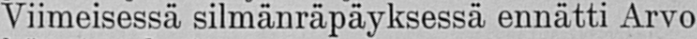Viimeisessä silmänräpäyksessä ennätti Arvo
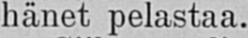hänet pelastaa.
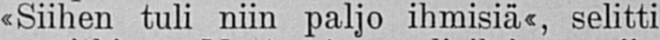«Siihen tuli niin paljo ihmisiä«, selitti
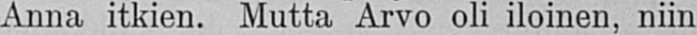Anna itkien. Mutta Arvo oli iloinen, niin
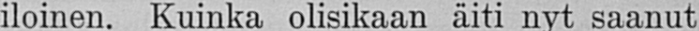iloinen. Kuinka olisikaan äiti saanut
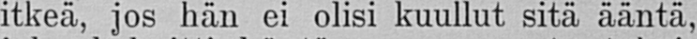itkeä, jos hän ei olisi kuullut sitä ääntä,
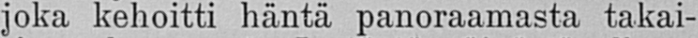joka kehoitti häntä panoraamasta takai-
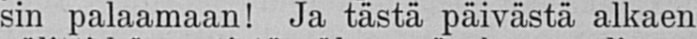sin palaamaan! Ja tästä päivästä alkaen
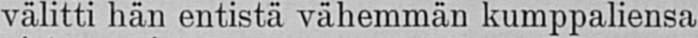välitti hän entistä vähemmän kumppaliensa
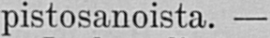pistosanoista.—
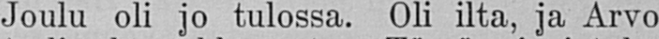Joulu oli jo tulossa. Oli ilta ja Arvo
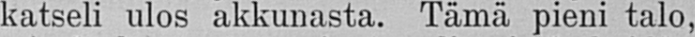katseli ulos akkunasta. Tämä pieni talo,
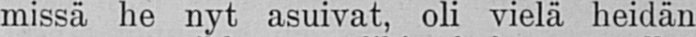missä he nyt asuivat, oli vielä heidän
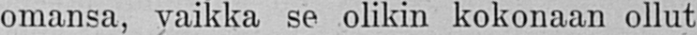omansa, vaikka se olikin kokonaan ollut
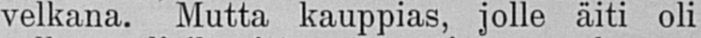velkana. Mutta kauppias, jolle äiti oli
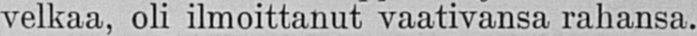velkaa, oli ilmoittanut vaativansa rahansa.
